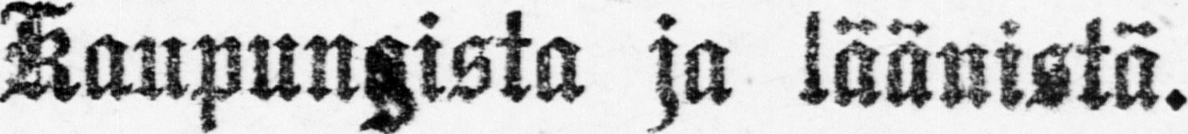Kaupungista ja läänistä.
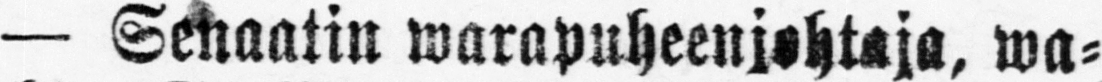— Senaatin warapnheenjehtaja, wa-
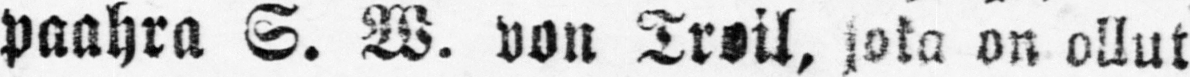paahra S. W. von Troil, jota on ollut
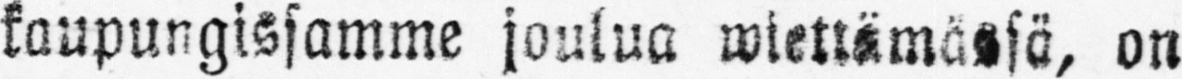kaupungissamme joulua wiettämässä, on
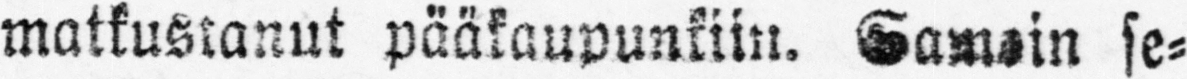matkustanut pääkaupunkiin. Samoin se-
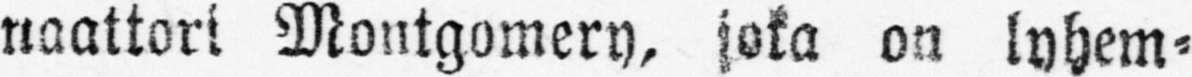naattori Montgomery, joka on lyhem-
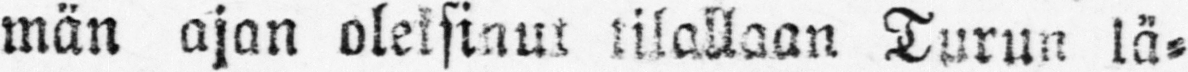män ajan oleksinut tilallaan Turun lä-
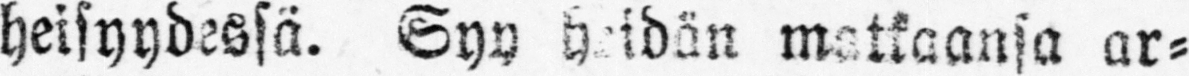heisyydessä. Syy heidän matkaansa ar-
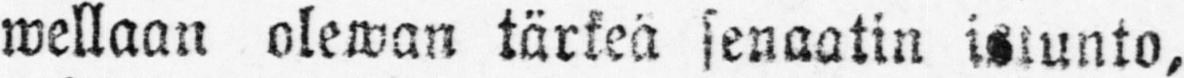wellaan olewan tärkeä senaatin istunto,
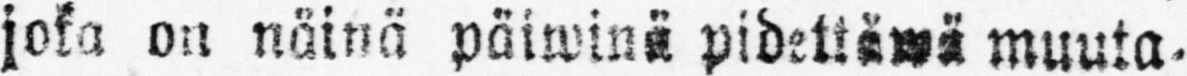joka on näinä päiwinä pidettäwä muuta-
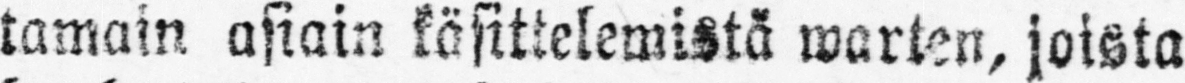tamain asiain käsittelemistä warten, joista
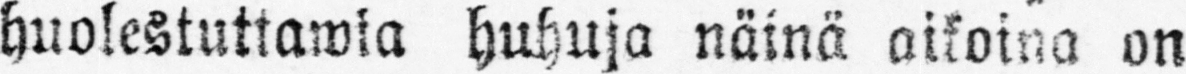huolestuttawia huhuja näinä aikoina on
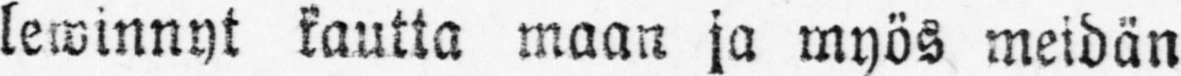lewinnyt kautta maan ja myös meidän
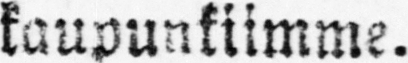kaupunkiimme.
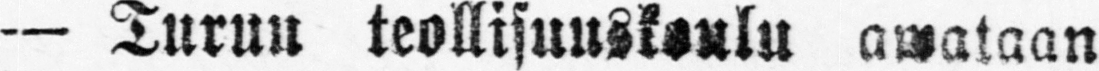— Turun teollisuuskoulu awataan
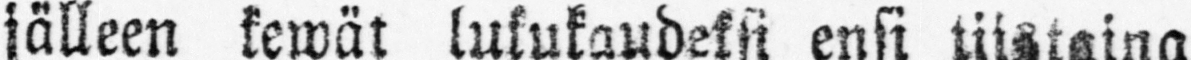jälleen kewät lukukaudeksi ensi tiistaina
